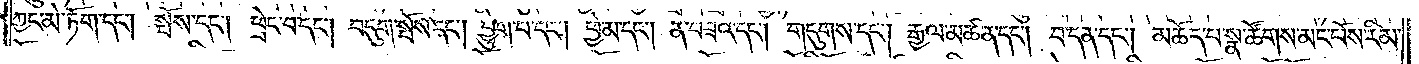ཀྱང་མེ་ཏོག་དང༌། སྤོས་དང༌། ཕྲེང་བ་དང༌། བདུག་སྤོས་དང༌། བྱུག་པ་དང༌། ཕྱེ་མ་དང༌། ན་བཟའ་དང༌། གདུགས་དང༌། རྒྱལ་མཚན་དང༌། བ་དན་དང༌། མཆོད་པ་སྣ་ཚོགས་མང་པོས་རིམ་
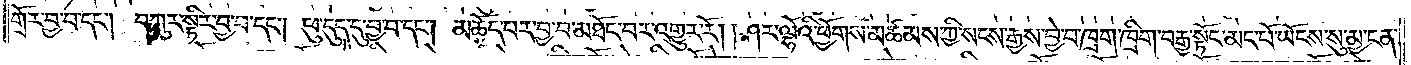གྲོར་བྱ་བ་དང༌། བཀུར་སྟིར་བྱ་བ་དང༌། ཕུ་དུད་དུ་བྱ་བ་དང༌། མཆོད་པར་བྱ་བ་མཐོང་བར་འགྱུར་རོ། །ཤར་ལྷོའི་ཕྱོགས་མཚམས་ཀྱི་སངས་རྒྱས་བྱེ་བ་ཁྲག་ཁྲིག་བརྒྱ་སྟོང་མང་པོ་ཡོངས་སུ་མྱ་ངན་
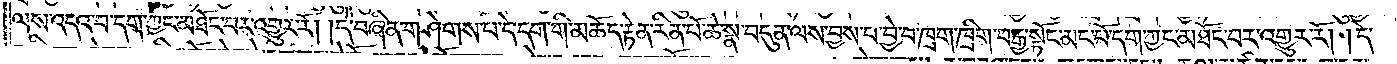ལས་འདའ་བ་དག་ཀྱང་མཐོང་བར་འགྱུར་རོ། །དེ་བཞིན་གཤེགས་པ་དེ་དག་གི་མཆོད་རྟེན་རིན་པོ་ཆེ་སྣ་བདུན་ལས་བྱས་པ་བྱེ་བ་ཁྲག་ཁྲིག་བརྒྱ་སྟོང་མང་པོ་དག་ཀྱང་མཐོང་བར་འགྱུར་རོ། །དེ་
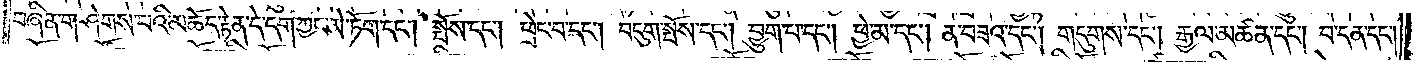བཞིན་གཤེགས་པའི་མཆོད་རྟེན་དེ་དག་ཀྱང་མེ་ཏོག་དང༌། སྤོས་དང༌། ཕྲེང་བ་དང༌། བདུག་སྤོས་དང༌། བྱུག་པ་དང༌། ཕྱེ་མ་དང༌། ན་བཟའ་དང༌། གདུགས་དང༌། རྒྱལ་མཚན་དང༌། བ་དན་དང༌།
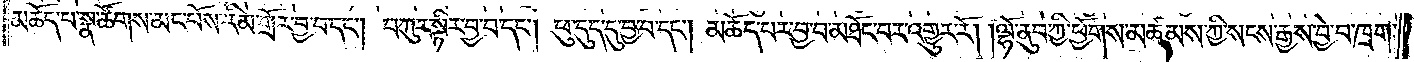མཆོད་པ་སྣ་ཚོགས་མང་པོས་རིམ་གྲོར་བྱ་བ་དང༌། བཀུར་སྟིར་བྱ་བ་དང༌། ཕུ་དུད་དུ་བྱ་བ་དང༌། མཆོད་པར་བྱ་བ་མཐོང་བར་འགྱུར་རོ། །ལྷོ་ནུབ་ཀྱི་ཕྱོགས་མཚམས་ཀྱི་སངས་རྒྱས་བྱེ་བ་ཁྲག་
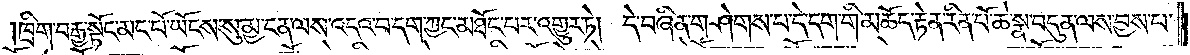ཁྲིག་བརྒྱ་སྟོང་མང་པོ་ཡོངས་སུ་མྱ་ངན་འདའ་བ་དག་ཀྱང་མཐོང་བར་འགྱུར་ཏེ། དེ་བཞིན་གཤེགས་པ་དེ་དག་གི་མཆོད་རྟེན་རིན་པོ་ཆེ་སྣ་བདུན་ལས་བྱས་པ་
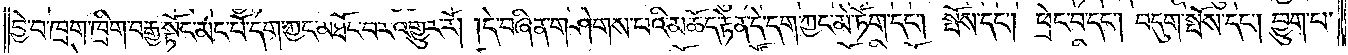བྱེ་བ་ཁྲག་ཁྲིག་བརྒྱ་སྟོང་མང་པོ་དག་ཀྱང་མཐོང་བར་འགྱུར་རོ། །དེ་བཞིན་གཤེགས་པའི་མཆོད་རྟེན་དེ་དག་ཀྱང་མེ་ཏོག་དང༌། སྤོས་དང༌། ཕྲེང་བ་དང༌། བདུག་སྤོས་དང༌། བྱུག་པ་
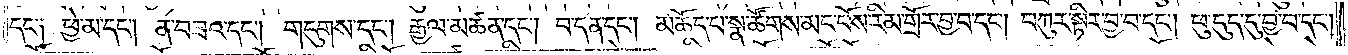དང༌༑ ཕྱེ་མ་དང༌། ན་བཟའ་དང༌། གདུགས་དང༌། རྒྱལ་མཚན་དང༌། བ་དན་དང༌། མཆོད་པ་སྣ་ཚོགས་མང་པོས་རིམ་གྲོར་བྱ་བ་དང༌། བཀུར་སྟིར་བྱ་བ་དང༌། ཕུ་དུད་དུ་བྱ་བ་དང༌།
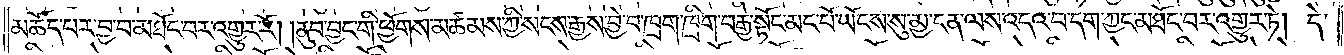མཆོད་པར་བྱ་བ་མཐོང་བར་འགྱུར་རོ། །ནུབ་བྱང་གི་ཕྱོགས་མཚམས་ཀྱི་སངས་རྒྱས་བྱེ་བ་ཁྲག་ཁྲིག་བརྒྱ་སྟོང་མང་པོ་ཡོངས་སུ་མྱ་ངན་ལས་འདའ་བ་དག་ཀྱང་མཐོང་བར་འགྱུར་ཏེ། དེ་
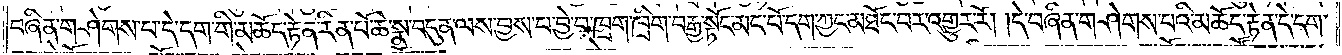བཞིན་གཤེགས་པ་དེ་དག་གི་མཆོད་རྟེན་རིན་པོ་ཆེ་སྣ་བདུན་ལས་བྱས་པ་བྱ་བ་ཁྲག་ཁྲིག་བརྒྱ་སྟོང་མང་པོ་དག་ཀྱང་མཐོང་བར་འགྱུར་རོ། །དེ་བཞིན་གཤེགས་པའི་མཆོད་རྟེན་དེ་དག་
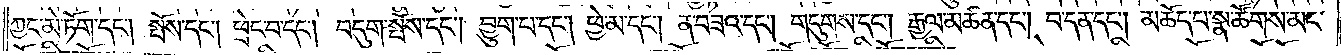ཀྱང་མེ་ཏོག་དང༌། སྤོས་དང༌། ཕྲེང་བ་དང༌། བདུག་སྤོས་དང༌། བྱུག་པ་དང༌། ཕྱེ་མ་དང༌། ན་བཟའ་དང༌། གདུགས་དང༌། རྒྱལ་མཚན་དང༌། བ་དན་དང༌། མཆོད་པ་སྣ་ཚོགས་མང་
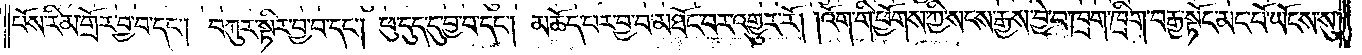པོས་རིམ་གྲོར་བྱ་བ་དང༌། བཀུར་སྟིར་བྱ་བ་དང༌། ཕུ་དུད་དུ་བྱ་བ་དང༌། མཆོད་པར་བྱ་བ་མཐོང་བར་འགྱུར་རོ། །འོག་གི་ཕྱོགས་ཀྱི་སངས་རྒྱས་བྱེ་བ་ཁྲག་ཁྲིག་བརྒྱ་སྟོང་མང་པོ་ཡོངས་སུ་
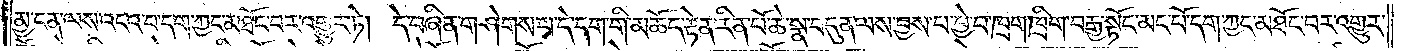མྱ་ངན་ལས་འདའ་བ་དག་ཀྱང་མཐོང་བར་འགྱུར་ཏེ། དེ་བཞིན་གཤེགས་པ་དེ་དག་གི་མཆོད་རྟེན་རིན་པོ་ཆེ་སྣ་བདུན་ལས་བྱས་པ་བྱེ་བ་ཁྲག་ཁྲིག་བརྒྱ་སྟོང་མང་པོ་དག་ཀྱང་མཐོང་བར་འགྱུར་
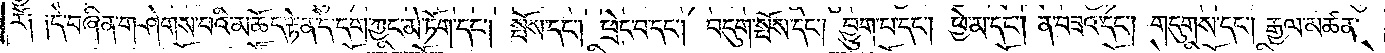རོ༑ ༑དེ་བཞིན་གཤེགས་པའི་མཆོད་རྟེན་དེ་དག་ཀྱང་མེ་ཏོག་དང༌། སྤོས་དང༌། ཕྲེང་བ་དང༌། བདུག་སྤོས་དང༌། བྱུག་པ་དང༌། ཕྱེ་མ་དང༌། ན་བཟའ་དང༌། གདུགས་དང༌། རྒྱལ་མཚན་
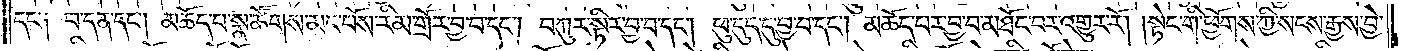དང༌། བ་དན་དང༌། མཆོད་པ་སྣ་ཚོགས་མང་པོས་རིམ་གྲོར་བྱ་བ་དང༌། བཀུར་སྟིར་བྱ་བ་དང༌། ཕུ་དུད་དུ་བྱ་བ་དང༌། མཆོད་པར་བྱ་བ་མཐོང་བར་འགྱུར་རོ། །སྟེང་གི་ཕྱོགས་ཀྱི་སངས་རྒྱས་བྱེ་
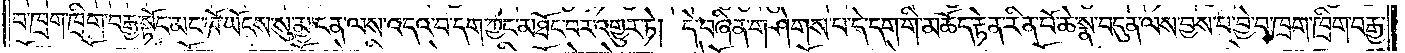བ་ཁྲག་ཁྲིག་བརྒྱ་སྟོང་མང་པོ་ཡོངས་སུ་མྱ་ངན་ལས་འདའ་བ་དག་ཀྱང་མཐོང་བར་འགྱུར་ཏེ། དེ་བཞིན་གཤེགས་པ་དེ་དག་གི་མཆོད་རྟེན་རིན་པོ་ཆེ་སྣ་བདུན་ལས་བྱས་པ་བྱེ་བ་ཁྲག་ཁྲིག་བརྒྱ་
